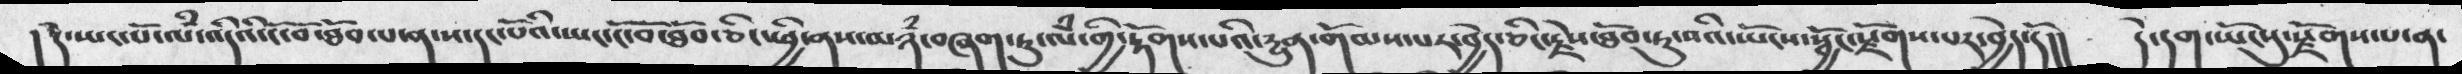།  དེ་ཡང་པོ་ལཾ་འདིའི་ངོ་བོ་ཐོབ་པ་ན་ས་དང་པོའི་ཡང་ངོ་བོ་ཐོབ་ཅིང་ཕྱི་ནས་མཉཾ་བཞག་ཏུ་ལཾ་གྱི་རྟོགས་པའི་དྱུན་གོམས་པར་བྱེད་ཅིང་རྗེས་ཐོབ་ཏུ་བའི་ཡོངས་སྦྱོང་སྫོགས་པར་བྱེད་དོ།།   དེ་དག་ཡོངསུ་སྫོགས་པ་ན་
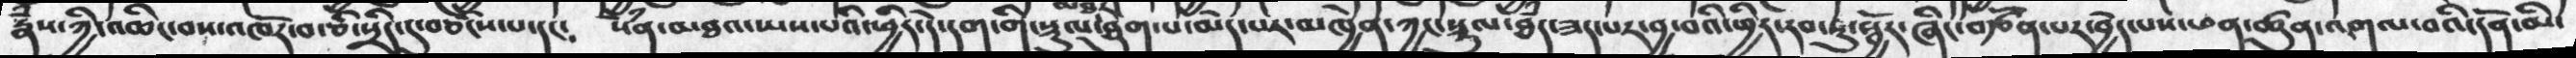རྣཾས་ཀྱི་འཆིང་བས་འཁོར་བ་ཅི་སྲིད་དུ་བཅིངས་པ་དང༴   སེཾན་མཐའ་ཡས་པའི་ཕྱིར་དེ་དག་གི་སྡུལ་མཐར་ཐུག་པ་མེད་པར་མཁྱེན་ཀྱང་སྡུལ་ཐཾད་ཟད་པར་བྱ་བའི་ཕྱིར་རབ་སྦྱོར་ཞིང་བརྩོན་པར་བྱེད་པས་ཕན་ཚུན་འགལ་བའི་དོན་མི་
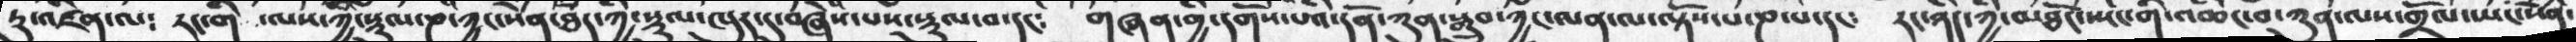ཏུ་འཛིན་ལ༴   རང་གི ་ལས་ཀྱི་སྡུལ་ཎ་ཀྱང་སེཾན་ཐཾད་ཀྱི་སྡུལ་ཁུར་དུ་བཞེས་པས་སྡུལ་བ་དང༴    གཞན་གྱི་དགོས་པའི་དོན་ཀུན་སྒྲུབ་ཀྱང་ལན་ལ་ལྟོས་པ་ཎ་པ་དང༴   རང་ཉིད་ཀྱི་མཐོང་ཡང་གི་འཆིང་བ་ཀུན་ལས་གྲོལ་ཡང་སེཾན་
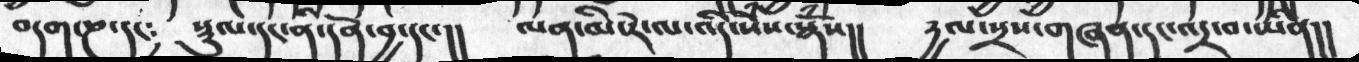བདག་ཎ་དང༴     སྡུལ་དང་ནི་དོན་བྱ་དང་།།        ལན་མི་རེ་ལ་འདི་སེཾས་སྙོཾས།།   དྱལ་སྲས་གཞན་དང་འདྲ་བ་ཡིན།།
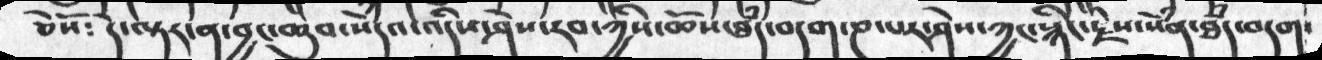ཅེསོ༴   དེ་ལྟར་ན་བྱང་ཆུབ་སེཾདའ་འདིས་ཤེས་རབ་ཀྱིས་ཆོས་ཐཾད་བདག་ཎ་པར་ཤེས་ཀྱང་སྙིང་རྗེས་སེཾན་ཐཾད་བདག་
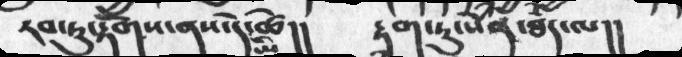རབ་ཏུ་རྟོགས་ནས་དེ་ཡི་ཚེ།།  རྟག་ཏུ་སེཾན་ཐཾད་ལ།།
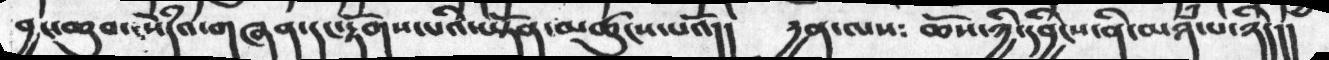བྱང་ཆུབ་སེཾདའ་གཞན་དང་རྟོགས་པའི་ཡྟོན་མཚུངས་པའོ།།  དྱན་ལས༴  ཆོས་ཀྱི་དབྱིངས་ནི་མཉཾ་པ་ཉིད།།
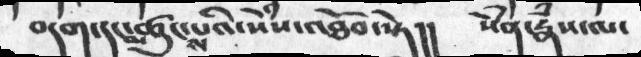བདག་དང་མཚུངས་པའི་སེཾས་འཐོབ་སྟེ།།  སེཾན་རྣཾས་ལ་
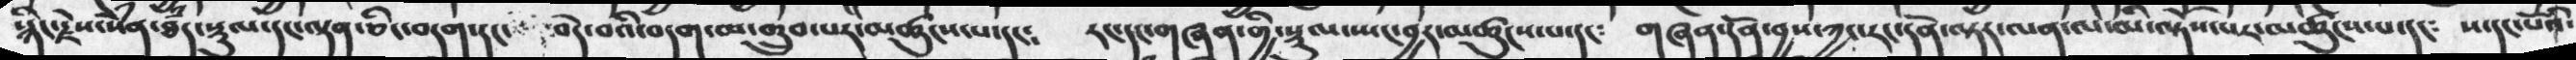སྙིང་རྗེས་སེཾན་ཐཾད་སྡུལ་དང་ལྡན་ཅིང་བདག་དང་  བདེ་བའི་བདག་མ་གྲུབ་པར་མཚུངས་པ་དང༴  རང་དང་གཞན་གྱི་སྡུལ་སྤང་བྱར་མཚུངས་པ་དང༴   གཞན་དོན་བྱས་ཀྱང་རང་དོན་ལྟར་ལན་ལ་མ་ལྟོས་པར་མཚུངས་པ་དང༴   ས་དང་པོའི་
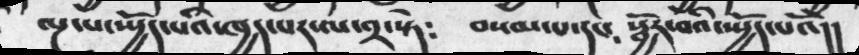ལྔ་པ་སྤྱོད་པའི་ཁྱད་པར་ལ་༢་སྟེ༴   བསམ་པ་དང༴  སྦྱོར་བའི་སྤྱོད་པའོ།།
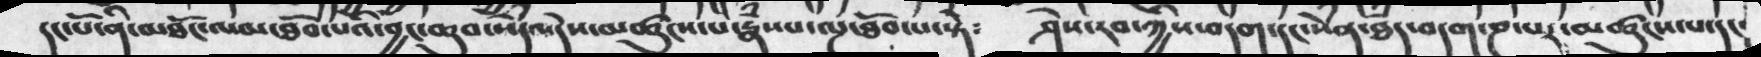དང་པོ་ནི་མཐོང་ལམ་ཐོབ་པའི་བྱང་ཆུབ་སེཾདའ་དེ་མཚུངས་པ་རྣཾས་པ་ལྔ་ཐོབ་པ་སྟེ༴     ཤེས་རབ་ཀྱིས་བདག་དང་སེཾན་ཐཾད་བདག་ཎ་པར་མཚུངས་པ་དང་
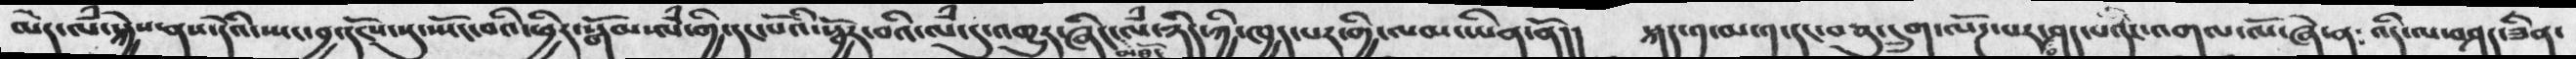མེད་ལཾ་སྐྱེས་ནས་དེའི་སྤང་བྱ་དངོས་སུ་སྤོང་བའི་ཕྱིར་སྒོམ་ལཾ་གྱི་དང་པོའི་སྦྱོར་བའི་ལྃ་དུ་འགྱུར་ཞིང་མཐོང་ལཾ་ཉིད་ཀྱི་ཁྱད་པར་གྱི་ལམ་ཡིན་ནོ།།   སྐད་༡་མ་༡་དང་བཅུ་དྲུག་ལོཌ་པར་བཤད་པ་དང་འགལ་ལོ་ཞེ་ན༴  འདི་ལ་བཤད་ཟིན་
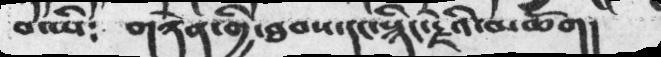བ་ཡི༴   གཉེན་གྱི་ཐབས་དང་སྙིང་རྗེའི་མཆོག།
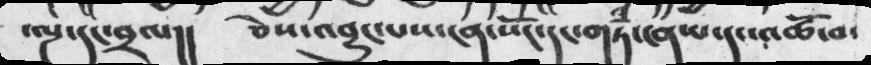་ལྔ་དང་བྲལ།།  ཅེས་འབྱུང་པས་ངན་སོང་དང་གཏཾ་ངན་པ་དང་འཚོ་བ་
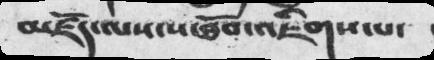མཛོད་ལས་ས་ཐོབ་འཇིགས་པ་
